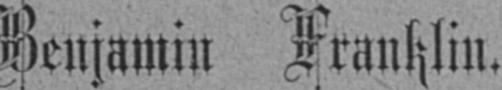Benjamin Franklin.
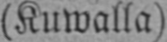(Kuwalla).
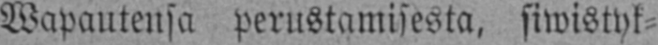Wapautensa perustamisesta, siwistyk-
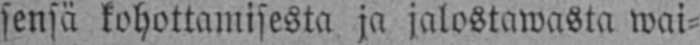sensä kohottamisesta ja jalostawasta wai-
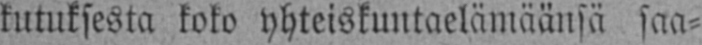kutuksesta koko yhteiskuntaelämäänsä saa-
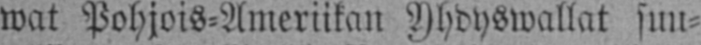wat Pohjois-Ameriikan Yhdyswallat suu-
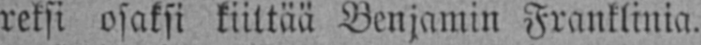reksi osaksi kiiltää Benjamin Franklinia.
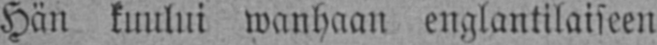Hän kuului wanhaan englantilaiseen
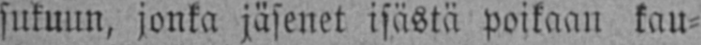sukuun, jonka jäsenet isästä poikaan kau-
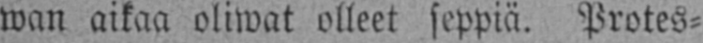wan aikaa oliwat olleet seppiä. Protes-
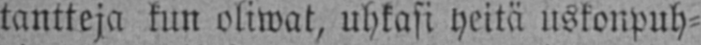tantteja kun oliwat, uhkasi heitä uskonpuh-
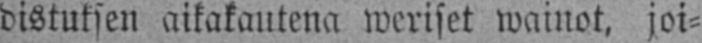distuksen aikakautena weriset wainot, joi-
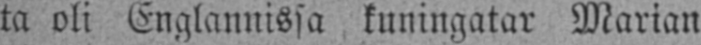ta oli Englannissa kuningatar Marian
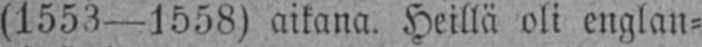(1553 —1558) aikana. Heillä oli englan-
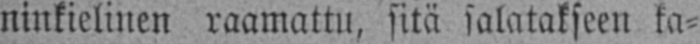ninkielinen raamattu, sitä salatakseen ka-
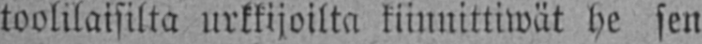toolilaisilta urkkijoilta kiinnittiwät he sen
